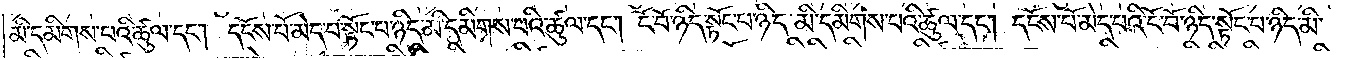མི་དམིགས་པའི་ཚུལ་དང༌། དངོས་པོ་མེད་པ་སྟོང་པ་ཉིད་མི་དམིགས་པའི་ཚུལ་དང༌། ངོ་བོ་ཉིད་སྟོང་པ་ཉིད་མི་དམིགས་པའི་ཚུལ་དང༌། དངོས་པོ་མེད་པའི་ངོ་བོ་ཉིད་སྟོང་པ་ཉིད་མི་
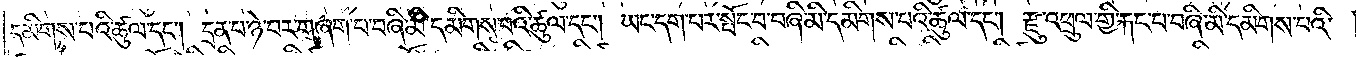དམིགས་པའི་ཚུལ་དང༌། དྲན་པ་ཉེ་བར་གཞག་པ་བཞི་མི་དམིགས་པའི་ཚུལ་དང༌། ཡང་དག་པར་སྤོང་བ་བཞི་མི་དམིགས་པའི་ཚུལ་དང༌། རྫུ་འཕྲུལ་གྱི་རྐང་པ་བཞི་མི་དམིགས་པའི་
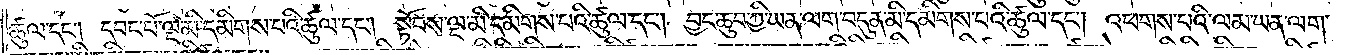ཚུལ་དང༌། དབང་པོ་ལྔ་མི་དམིགས་པའི་ཚུལ་དང༌། སྟོབས་ལྔ་མི་དམིགས་པའི་ཚུལ་དང༌། བྱང་ཆུབ་ཀྱི་ཡན་ལག་བདུན་མི་དམིགས་པའི་ཚུལ་དང༌། འཕགས་པའི་ལམ་ཡན་ལག་
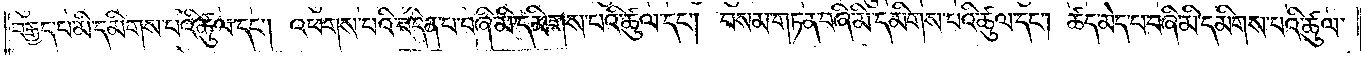བརྒྱད་པ་མི་དམིགས་པའི་ཚུལ་དང༌། འཕགས་པའི་བདེན་པ་བཞི་མི་དམིགས་པའི་ཚུལ་དང༌། བསམ་གཏན་བཞི་མི་དམིགས་པའི་ཚུལ་དང༌། ཚད་མེད་པ་བཞི་མི་དམིགས་པའི་ཚུལ་
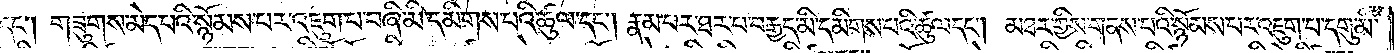དང༌། གཟུགས་མེད་པའི་སྙོམས་པར་འཇུག་པ་བཞི་མི་དམིགས་པའི་ཚུལ་དང༌། རྣམ་པར་ཐར་པ་བརྒྱད་མི་དམིགས་པའི་ཚུལ་དང༌། མཐར་གྱིས་གནས་པའི་སྙོམས་པར་འཇུག་པ་དགུ་མི་
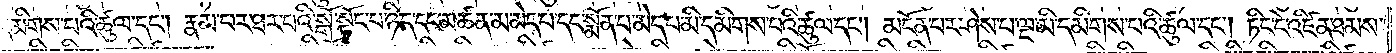དམིགས་པའི་ཚུལ་དང༌། རྣམ་པར་ཐར་པའི་སྒོ་སྟོང་པ་ཉིད་དང་མཚན་མ་མེད་པ་དང་སྨོན་པ་མེད་པ་མི་དམིགས་པའི་ཚུལ་དང༌། མངོན་པར་ཤེས་པ་ལྔ་མི་དམིགས་པའི་ཚུལ་དང༌། ཏིང་ངེ་འཛིན་ཐམས་
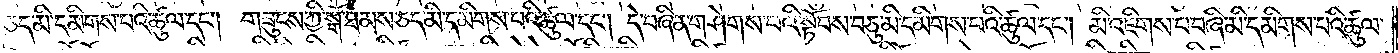ཅད་མི་དམིགས་པའི་ཚུལ་དང༌། གཟུངས་ཀྱི་སྒོ་ཐམས་ཅད་མི་དམིགས་པའི་ཚུལ་དང༌། དེ་བཞིན་གཤེགས་པའི་སྟོབས་བཅུ་མི་དམིགས་པའི་ཚུལ་དང༌། མི་འཇིགས་པ་བཞི་མི་དམིགས་པའི་ཚུལ་
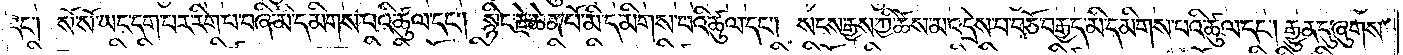དང༌། སོ་སོ་ཡང་དག་པར་རིག་པ་བཞི་མི་དམིགས་པའི་ཚུལ་དང༌། སྙིང་རྗེ་ཆེན་པོ་མི་དམིགས་པའི་ཚུལ་དང༌། སངས་རྒྱས་ཀྱི་ཆོས་མ་འདྲེས་པ་བཅོ་བརྒྱད་མི་དམིགས་པའི་ཚུལ་དང༌། རྒྱུན་དུ་ཞུགས་
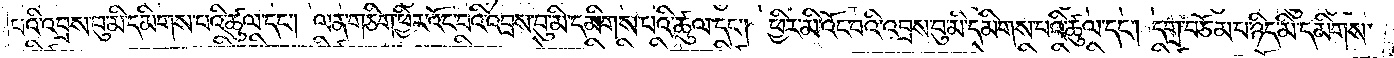པའི་འབྲས་བུ་མི་དམིགས་པའི་ཚུལ་དང༌། ལན་གཅིག་ཕྱིར་འོང་བའི་འབྲས་བུ་མི་དམིགས་པའི་ཚུལ་དང༌། ཕྱིར་མི་འོང་བའི་འབྲས་བུ་མི་དམིགས་པའི་ཚུལ་དང༌། དགྲ་བཅོམ་པ་ཉིད་མི་དམིགས་
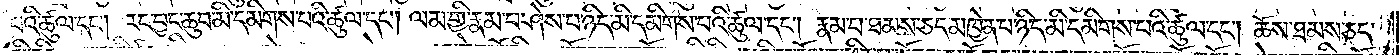པའི་ཚུལ་དང༌། རང་བྱང་ཆུབ་མི་དམིགས་པའི་ཚུལ་དང༌། ལམ་གྱི་རྣམ་པ་ཤེས་པ་ཉིད་མི་དམིགས་པའི་ཚུལ་དང༌། རྣམ་པ་ཐམས་ཅད་མཁྱེན་པ་ཉིད་མི་དམིགས་པའི་ཚུལ་དང༌། ཆོས་ཐམས་ཅད་
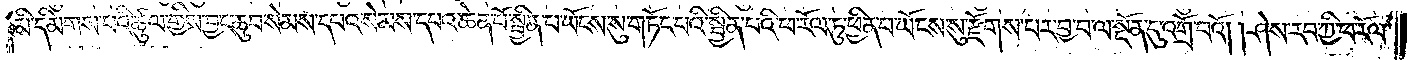མི་དམིགས་པའི་ཚུལ་གྱིས་བྱང་ཆུབ་སེམས་དཔའ་སེམས་དཔའ་ཆེན་པོ་སྦྱིན་པ་ཡོངས་སུ་གཏོང་བའི་སྦྱིན་པའི་ཕ་རོལ་ཏུ་ཕྱིན་པ་ཡོངས་སུ་རྫོགས་པར་བྱ་བ་ལ་སྔོན་དུ་འགྲོ་བའོ། །ཤེས་རབ་ཀྱི་ཕ་རོལ་
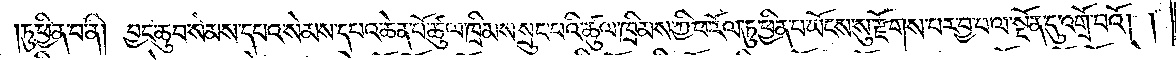ཏུ་ཕྱིན་པ་ནི། བྱང་ཆུབ་སེམས་དཔའ་སེམས་དཔའ་ཆེན་པོ་ཚུལ་ཁྲིམས་བསྲུང་བའི་ཚུལ་ཁྲིམས་ཀྱི་ཕ་རོལ་ཏུ་ཕྱིན་པ་ཡོངས་སུ་རྫོགས་པར་བྱ་བ་ལ་སྔོན་དུ་འགྲོ་བའོ། །
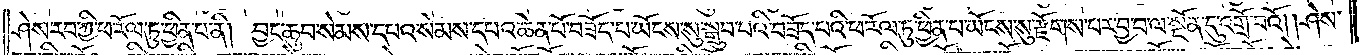ཤེས་རབ་ཀྱི་ཕ་རོལ་ཏུ་ཕྱིན་པ་ནི། བྱང་ཆུབ་སེམས་དཔའ་སེམས་དཔའ་ཆེན་པོ་བཟོད་པ་ཡོངས་སུ་བསྒྲུབ་པའི་བཟོད་པའི་ཕ་རོལ་ཏུ་ཕྱིན་པ་ཡོངས་སུ་རྫོགས་པར་བྱ་བ་ལ་སྔོན་དུ་འགྲོ་བའོ། །ཤེས་
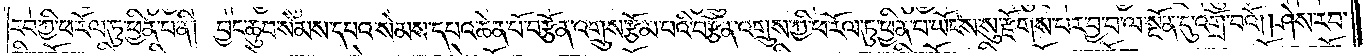རབ་ཀྱི་ཕ་རོལ་ཏུ་ཕྱིན་པ་ནི། བྱང་ཆུབ་སེམས་དཔའ་སེམས་དཔའ་ཆེན་པོ་བརྩོན་འགྲུས་རྩོམ་པའི་བརྩོན་འགྲུས་ཀྱི་ཕ་རོལ་ཏུ་ཕྱིན་པ་ཡོངས་སུ་རྫོགས་པར་བྱ་བ་ལ་སྔོན་དུ་འགྲོ་བའོ། །ཤེས་རབ་
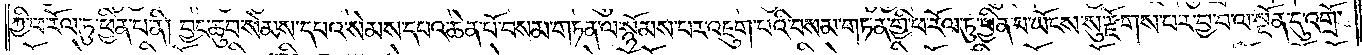ཀྱི་ཕ་རོལ་ཏུ་ཕྱིན་པ་ནི། བྱང་ཆུབ་སེམས་དཔའ་སེམས་དཔའ་ཆེན་པོ་བསམ་གཏན་ལ་སྙོམས་པར་འཇུག་པའི་བསམ་གཏན་གྱི་ཕ་རོལ་ཏུ་ཕྱིན་པ་ཡོངས་སུ་རྫོགས་པར་བྱ་བ་ལ་སྔོན་དུ་འགྲོ་
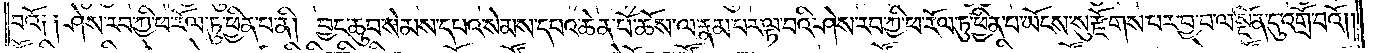བའོ༑ ༑ཤེས་རབ་ཀྱི་ཕ་རོལ་ཏུ་ཕྱིན་པ་ནི། བྱང་ཆུབ་སེམས་དཔའ་སེམས་དཔའ་ཆེན་པོ་ཆོས་ལ་རྣམ་པར་ལྟ་བའི་ཤེས་རབ་ཀྱི་ཕ་རོལ་ཏུ་ཕྱིན་པ་ཡོངས་སུ་རྫོགས་པར་བྱ་བ་ལ་སྔོན་དུ་འགྲོ་བའོ། །
